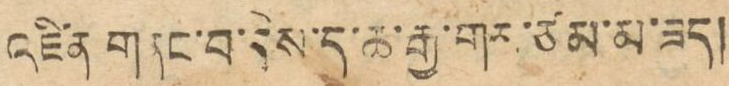འཛིན གནང་བ་དེས་ད་ཆ་རྒྱ་གར་ཙམ་མ་ཟད།
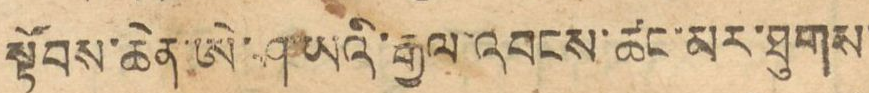སྟོབས་ཆེན་ཨེ་ཤ་ཡའི་རྒྱལ་འབངས་ཚང་མར་ཐུགས་
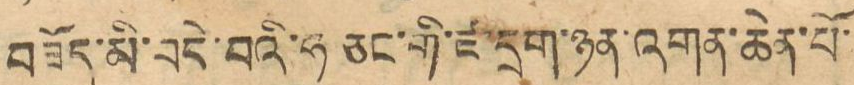མཟོད་མི་བདེ་བའི་ཧ ཅང་གི་ཛ་དྲག་ཉན་འགན་ཆེན་པོ་
